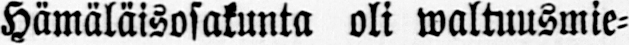Hämäläisosakunta oli waltuusmie-
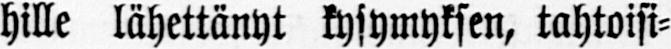hille lähettänyt kysymyksen, tahtoisi-
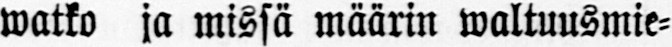watko ja missä määrin waltuusmie-
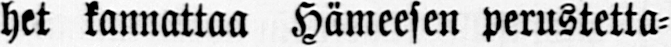het kannattaa Hämeesen perustetta-
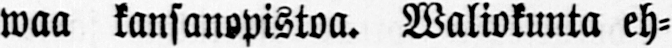vaa kansanopistoa. Waliokunta eh-
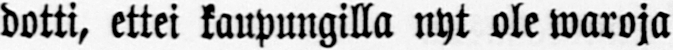dotti, ettei kaupungilla nyt ole waroja
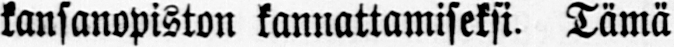kansanopiston kannattamiseksi. Tämä
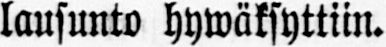lausunto hywäksyttiin.
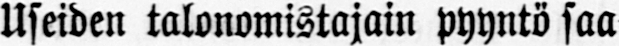Useiden talonomistajain pyyntö saa-
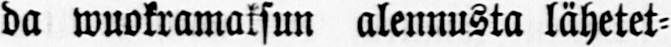da wuokramaksun alennusta lähetet-
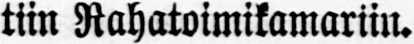tiin Rahatoimikamariin.
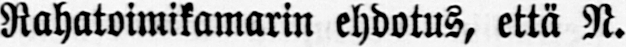Rahatoimikamarin ehdotus, että N.
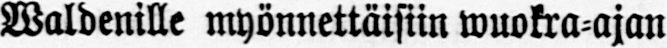Waldenille myönnettäisiin wuokra-ajan
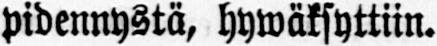pidennystä, hywäksyttiin.
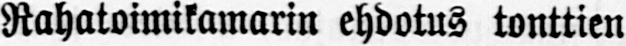Rahatoimikamarin ehdotus tonttien
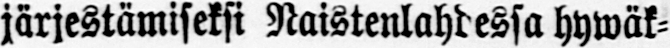järjestämiseksi Naistenlahdessa hywäk-
